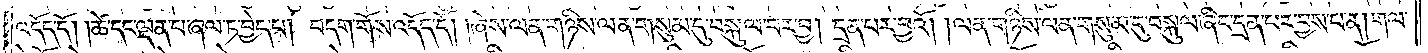འདོད་དོ། །ཚེ་དང་ལྡན་པ་ཞལ་ཏ་བྱེད་པ། བདག་གོས་འདོད་དོ། །ཞེས་ལན་གཉིས་ལན་གསུམ་དུ་བསྐུལ་བར་བྱ། དྲན་པར་བྱའོ། །ལན་གཉིས་ལན་གསུམ་དུ་བསྐུལ་ཞིང་དྲན་པར་བྱས་པ་ན། གལ་
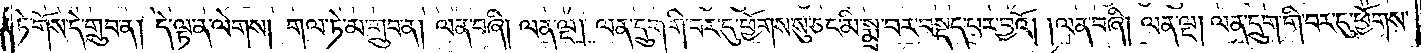ཏེ་གོས་དེ་གྲུབ་ན། དེ་ལྟ་ན་ལེགས། གལ་ཏེ་མ་གྲུབ་ན། ལན་བཞི། ལན་ལྔ། ལན་དྲུག་གི་བར་དུ་ཕྱོགས་སུ་ཅང་མི་སྨྲ་བར་བསྡད་པར་བྱའོ། །ལན་བཞི། ལན་ལྔ་ལྡན་དྲུག་གི་བར་དུ་ཕྱོགས་
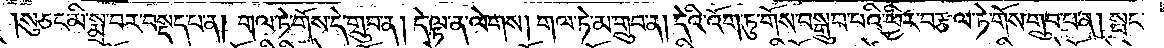སུ་ཅང་མི་སྨྲ་བར་བསྡད་པ་ན། གལ་ཏེ་གོས་དེ་གྲུབ་ན། དེ་ལྟ་ན་ལེགས། གལ་ཏེ་མ་གྲུབ་ན། དེའི་འོག་ཏུ་གོས་བསྒྲུབ་པའི་ཕྱིར་བརྩལ་ཏེ་གོས་གྲུབ་པ་ན། སྤང་
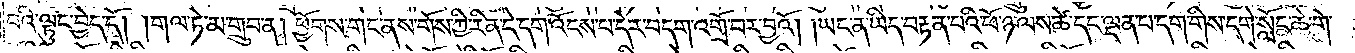བའི་ལྟུང་བྱེད་དོ། །གལ་ཏེ་མ་གྲུབ་ན། ཕྱོགས་གང་ནས་གོས་ཀྱི་རིན་དེ་དག་འོངས་པ་དེར་བདག་འགྲོ་བར་བྱའོ། །ཡང་ན་ཡིད་བརྟན་པའི་ཕོ་ཉ་ལས་ཚེ་དང་ལྡན་པ་དག་གིས་དགེ་སློང་ཆེ་གེ་
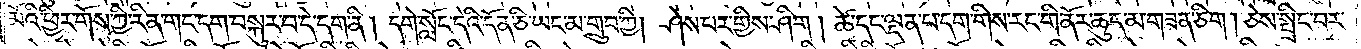མོའི་ཕྱིར་གོས་ཀྱི་རིན་གང་དག་བསྐུར་བ་དེ་དག་ནི། དགེ་སློང་དེའི་དོན་ཅི་ཡང་མ་གྲུབ་ཀྱི། ཤེས་པར་གྱིས་ཤིག ། ཚེ་དང་ལྡན་པ་དག་གིས་རང་གི་ནོར་ཆུད་མ་གཟན་ཅིག ། ཅེས་སྤྲིང་བར་
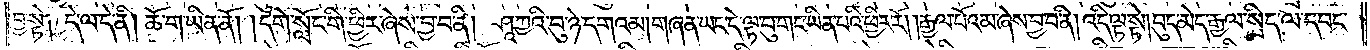བྱ་སྟེ༑ དེ་ལ་དེ་ནི། ཆོ་ག་ཡིན་ནོ། །དགེ་སློང་གི་ཕྱིར་ཞེས་བྱ་བ་ནི། ཤཱཀྱའི་བུ་ཉེ་དགའམ། གཞན་ཡང་དེ་ལྟ་བུ་གང་ཡིན་པའི་ཕྱིར་རོ། །རྒྱལ་པོའམ་ཞེས་བྱ་བ་ནི། འདི་ལྟ་སྟེ། བུད་མེད་རྒྱལ་སྲིད་ལ་དབང་
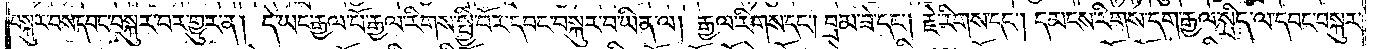བསྐུར་བས་དབང་བསྐུར་བར་གྱུར་ན། དེ་ཡང་རྒྱལ་པོ་རྒྱལ་རིགས་སྤྱི་བོར་དབང་བསྐུར་བ་ཡིན་ལ། རྒྱལ་རིགས་དང༌། བྲམ་ཟེ་དང༌། རྗེ་རིགས་དང༌། དམངས་རིགས་དག་རྒྱལ་སྲིད་ལ་དབང་བསྐུར་
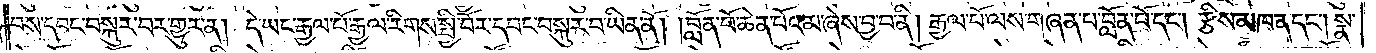བས་དབང་བསྐུར་བར་གྱུར་ན། དེ་ཡང་རྒྱལ་པོ་རྒྱལ་རིགས་སྤྱི་བོར་དབང་བསྐུར་བ་ཡིན་ནོ། །བློན་པོ་ཆེན་པོའམ་ཞེས་བྱ་བ་ནི། རྒྱལ་པོ་ལས་གཞན་པ་བློན་པོ་དང༌། རྩིས་མཁན་དང༌། སྣ་
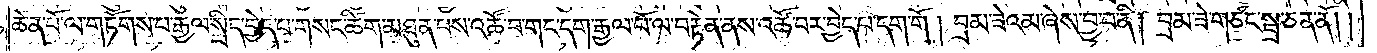ཆེན་པོ་ལ་གཏོགས་པ་རྒྱལ་སྲིད་བྱེད་པ་གསང་ཚིག་མཐུན་པས་འཚོ་བ་གང་དག་རྒྱལ་པོ་ལ་བརྟེན་ནས་འཚོ་བར་བྱེད་པ་དག་གོ ། བྲམ་ཟེའམ་ཞེས་བྱ་བ་ནི། བྲམ་ཟེ་གཙང་སྦྲ་ཅན་ནོ། །
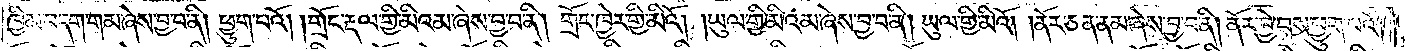ཁྱིམ་བདག་གམ་ཞེས་བྱ་བ་ནི། ཕྱུག་པའོ། །གྲོང་རྡལ་གྱི་མིའམ་ཞེས་བྱ་བ་ནི། གྲོང་ཁྱེར་གྱི་མིའོ། །ཡུལ་གྱི་མིའམ་ཞེས་བྱ་བ་ནི། ཡུལ་གྱི་མིའོ། །ནོར་ཅན་ནམ་ཞེས་བྱ་བ་ནི། ནོར་བྱེ་བས་ཕྱུག་པའོ། །
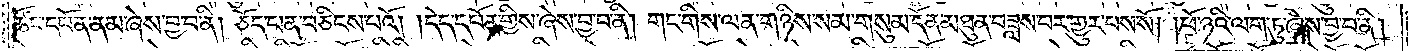ཚོང་དཔོན་ནམ་ཞེས་བྱ་བ་ནི། ཅོད་པན་བཅིངས་པའོ། །དེད་དཔོན་གྱིས་ཞེས་བྱ་བ་ནི། གང་གིས་ལན་གཉིས་སམ་གསུམ་དོན་མཐུན་བཟླས་པར་གྱུར་པས་སོ། །ཕོ་ཉའི་ལག་ཏུ་ཞེས་བྱ་བ་ནི།
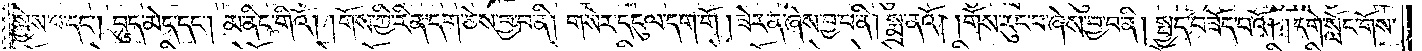སྐྱེས་པ་དང༌། བུད་མེད་དང༌། མ་ནིང་གིའོ། །གོས་ཀྱི་རིན་དག་ཅེས་བྱ་བ་ནི། གསེར་དངུལ་དག་གོ །ཟེར་ན་ཞེས་བྱ་བ་ནི། སྨྲ་ནའོ། །གོས་རུང་བ་ཞེས་བྱ་བ་ནི། སྤྱད་བཟོད་པའོ། །དགེ་སློང་གོས་
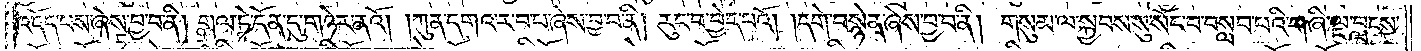འདོད་པས་ཞེས་བྱ་བ་ནི། གལ་ཏེ་དོན་དུ་གཉེར་ནའོ། །ཀུན་དགའ་ར་བ་པ་ཞེས་བྱ་བ་ནི། རུང་བ་བྱེད་པའོ། །དགེ་བསྙེན་ཞེས་བྱ་བ་ནི། གསུམ་ལ་སྐྱབས་སུ་སོང་བ་བསླབ་པའི་གཞི་ལྔ་བླངས་
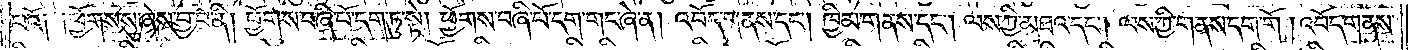པའོ༑ ༑ཕྱོགས་སུ་ཞེས་བྱ་བ་ནི། ཕྱོགས་བཞི་པོ་དག་ཏུ་སྟེ། ཕྱོགས་བཞི་པོ་དག་གང་ཞེ་ན། འབོད་གནས་དང༌། ཁྱིམ་གནས་དང༌། ལས་ཀྱི་མཐའ་དང༌། ལས་ཀྱི་གནས་དག་གོ། འབོད་གནས་
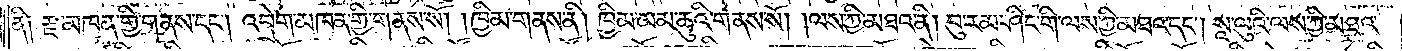ནི༑ རྫ་མཁན་གྱི་གནས་དང༌། འབྲེག་མཁན་གྱི་གནས་སོ། །ཁྱིམ་གནས་ནི། ཁྱིམ་མམ་ཆུའི་གནས་སོ། །ལས་ཀྱི་མཐའ་ནི། བུ་རམ་ཤིང་གི་ལས་ཀྱི་མཐའ་དང༌། སཱ་ལུའི་ལས་ཀྱི་མཐའ་
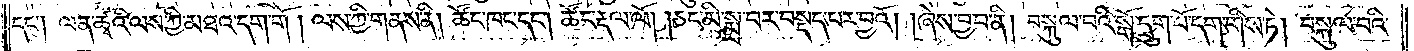དང༌། ལན་ཚྭའི་ལས་ཀྱི་མཐའ་དག་གོ། ལས་ཀྱི་གནས་ནི། ཚོང་ཁང་དང༌། ཚོང་རྡལ་ལོ། །ཅང་མི་སྨྲ་བར་བསྡད་པར་བྱའོ། །ཞེས་བྱ་བ་ནི། བསྐུལ་བའི་སྒོ་དྲུག་པོ་དག་གིས་ཏེ། བསྐུལ་བའི་
